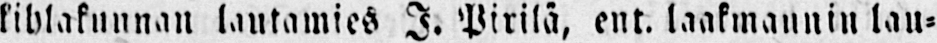kihlakuunan lautamies I. Pirilä, ent, laakmaunin lau-
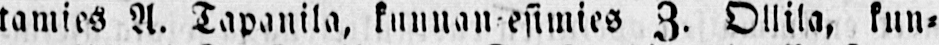tamies A. Tapanila, kunnan esimies Z. Ollila, kun-
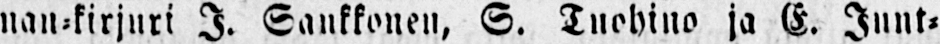nan-kirjuri I. Sankkonen, S. Tuohino ja E. Junt-
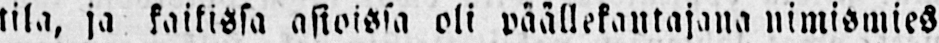tila, ja kaikissa asioissa oli päällekautajana nimismies
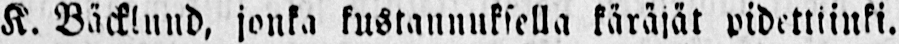K. Bäcklund, jonka kustannuksella käräjät pidettiinki.
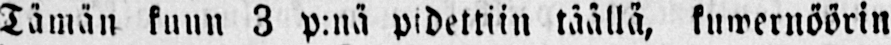Tämän kunn 3 p:nä pidettiin täällä, kuwernöörin
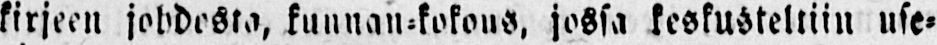kirjeen johdosta, kunnan-kokous. jossa keskusteltiin use-
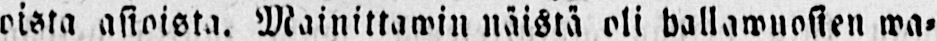oista asioista. Mainittawin näistä oli hallawuosien wa-
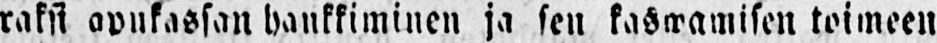raksi apukassan hankkiminen ja sen kaswamisen toimeen
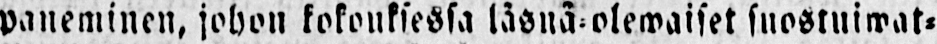paneminen, johon kokouksessa läsnä-olewaiset suostuiwat-
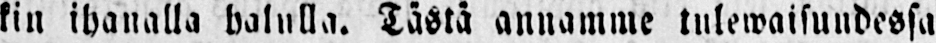kin ihanalla halulla. Tästä annamme tulewaisuudessa
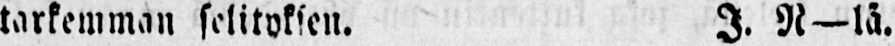tarkemman selityksen. I. A—tä.
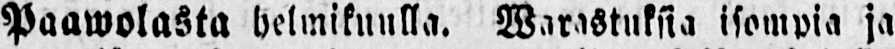Paawolasta helmikuulla. Warastuksia isompia ja
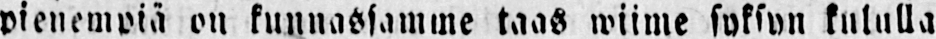pienempiä on kunnassamme taas wiime syksyn kululla
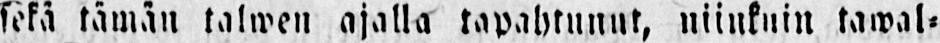sekä tämän talwen ajalla tapahtuuut, niinkuin tawal-
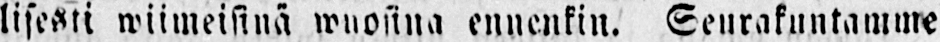lisesti wiimeisinä wuosina ennenkin. Seurakuutamme
